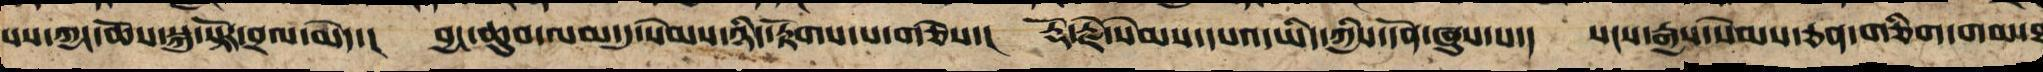པས་ཀྱང་ཆོས་སྐུ་སྟོར་བྲལ་མེད་།   བྱང་ཆུབ་ལམ་དུ་སེམས་ཉིད་རྟོགས་པ་གཅེས་།   རྡོ་རྗེ་སེམས་དཔའ་ཡིད་ཀྱིས་དོན་ཞུས་པ་།   སངས་རྒྱས་སེམས་ཅན་གཅིག་གམ་ཐ
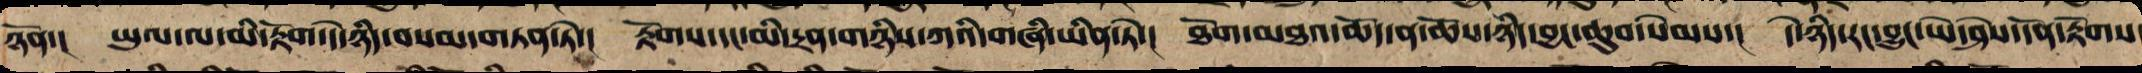ཉོན་།   ཡུལ་ལ་མི་རྟོག་དེ་ཉིད་བསམ་གཏན་ཏེ་།   རྟོགས་དང་མི་དྲན་གཉིས་ཀའི་གཞི་ཡིན་ཏེ་།   ཐོག་མཐའ་ཆོད་ན་ཆོས་ཉིད་བྱང་ཆུབ་སེམས་།   དེ་ཉིད་རང་བྱུང་ཡེ་ཤེས་དོན་རྟོགས་
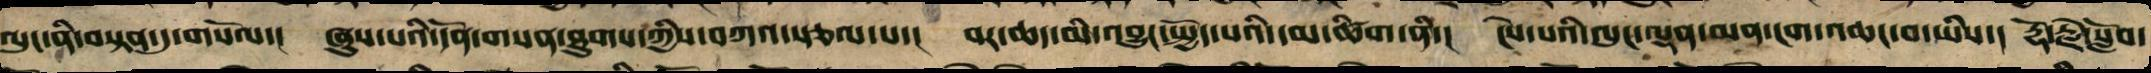ལུང་ནི་བསྟན་དུ་གསོལ་།    ཞུས་པའི་དོན་གསན་ཐུགས་ཀྱིས་བཀའ་སྩལ་པ་།   བར་ཆད་མི་འབྱུང་སྤྱོད་པའི་དམ་ཚིག་ནི་།   ངེས་པའི་ལུང་ལྡན་མན་ངག་འཆང་བ་ཡིས་།   རྡོ་རྗེ་སློབ་
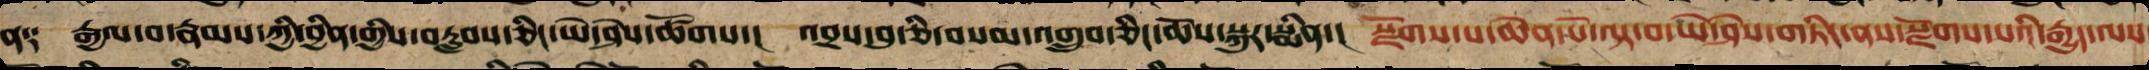ན༑ རྒྱལ་བ་རྣམས་ཀྱིས་བྱིན་རླབས་ཡེ་ཤེས་ཚོགས་། འབྲས་བུ་ཅི་བསམ་འགྲུབ་ཅིང་ཆོས་སྐུར་སྨིན་། སྫོགས་པ་ཆེན་པོ་ལྟ་བ་ཡེ་ཤེས་གཏིང་ནས་སྫོགས་པའི་རྒྱུད་ལས
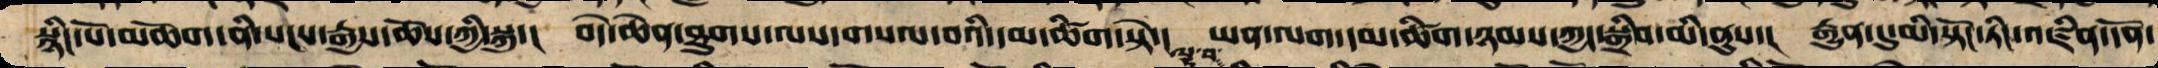སྙིང་པོ་མཆོག་ནི་སངས་རྒྱས་ཆོས་ཀྱི་སྐུ་།    བདེ་ཆེན་ཐུགས་ལས་གསལ་བའི་དམ་ཚིག་སྟེ་།    ཡན་ལག་དམ་ཚིག་ཉམས་ཀྱང་སྒྲིབ་མི་ནུས་།    རྒྱུན་དུ་མི་སྟོང་ཏིང་འཛིན་དོན་
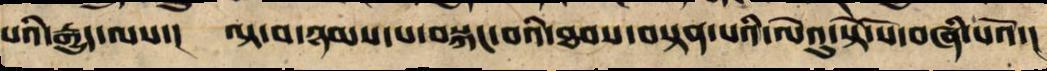པའི་རྒྱུད་ལས་།   ལྟ་བ་ཉམས་པ་བསྐང་བའི་ཐབས་བསྟན་པའི་ལེའུ་སྟེ་སོ་བཞི་པའོ་།
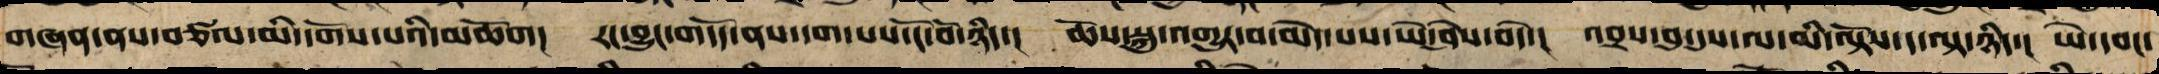གཞན་ནས་བཙལ་མི་དགོས་པའི་མཆོག། རང་བྱུང་གདོད་ནས་དག་པའི་ངོ་བོ་ཉིད་། ཆོས་སྐུ་འགྱུར་བ་མེད་པས་ཡེ་ཤེས་བདེ་། འབྲས་བུ་དུས་ལ་མི་ལྟོས་ད་ལྟ་ཉིད་། ཡེ་དབང་
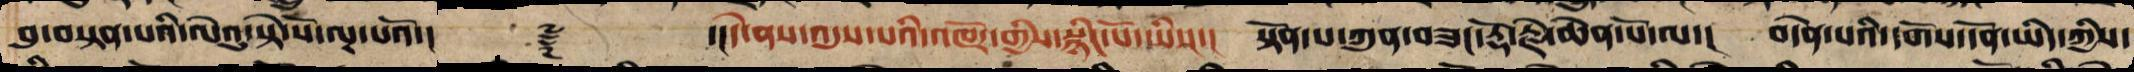བུ་བསྟན་པའི་ལེའུ་སྟེ་སོ་ལྔ་པའོ་།     ༈     ་།།དེ་ནས་འདུས་པའི་འཁོར་གྱིས་སྙིང་པོ་ཡིས་།   སྟོན་པ་ཀུན་བཟང་རྡོ་རྗེ་ཆེན་པོ་ལ་།   བདེན་པའི་དགོས་དོན་ཡིད་ཀྱིས་
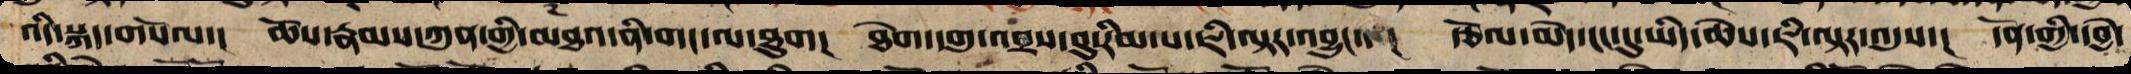འདི་སྐད་གསོལ་།   ཆོས་རྣམས་ཀུན་གྱི་མཐའ་ནི་གང་ལ་ཐུག།    ཐེག་དགུ་འབྲས་བུ་རིམ་པ་ཇི་ལྟར་འབྱུང་་།   རྩོལ་མེད་ངང་དུ་ཡིད་ཆེས་ཇི་ལྟར་འདུས་།   དོན་གྱི་དབྱེ་
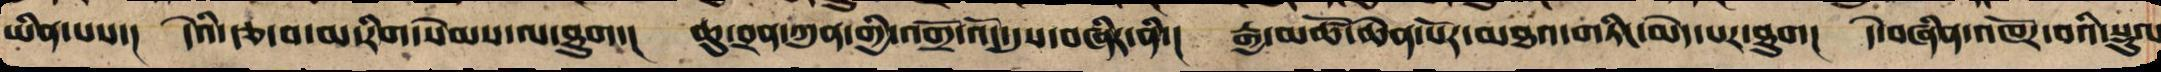ཡིན་པས་།   དེའི་རྩ་བ་མ་རིག་སེམས་ལ་ཐུག་།    ཆུ་བྲན་ཀུན་གྱི་འགྲོ་འོང་དུས་བཞིར་ནི་།    རྒྱ་མཚོ་ཆེན་པོར་མཐའ་གཏིང་མེད་པར་ཐུག།    དེ་བཞིན་འཁོར་བའི་སྡུལ
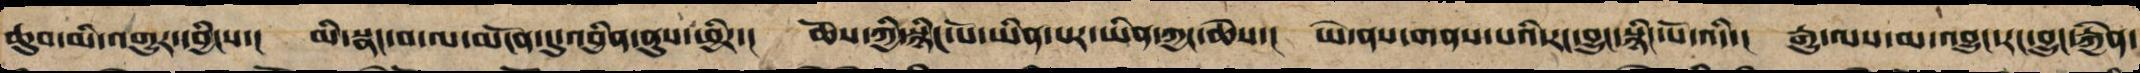ཆུབ་མི་འགྱུར་དབྱིངས་། མི་སྣང་བ་ལ་མངོན་དུ་འབྱིན་ནུས་ཕྱིར་། ཆོས་ཀྱི་སྙིང་པོ་ཡིན་པར་ཡི᪄་ཀྱང་ཆེས་། ཡེ་ནས་གནས་པའི་རང་བྱུང་སྙིང་པོ་འདི་། རྒྱུ་ལས་མ་བྱུང་རང་བྱུང་རྐྱེན་
